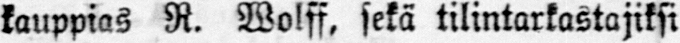kauppias R. Wolff, sekä tilintarkastajiksi
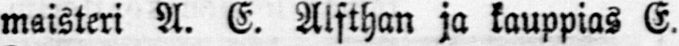maisteri A. E. Alfthan ja kauppias E.
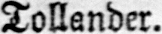Tollender.
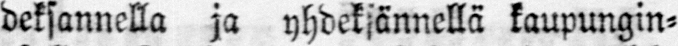deksannella ja yhdeksännellä kaupungin-
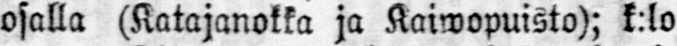osalla (Katajanokka ja Kaiwopuisto); k:lo
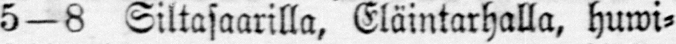5 — 8 Siltasaarilla, Eläintarhalla, huwi-
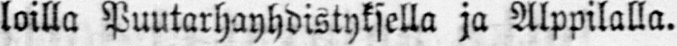loilla Puutarhayhdistyksella ja Alppilalla.
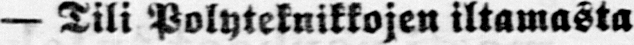— Tili Polyteknikkojen iltamasta
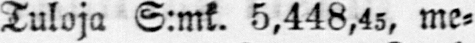18 11/2: Tuloja S:mk. 5,448,45, me-
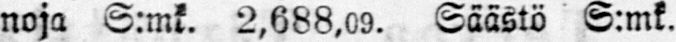noja S:mk. 2,688,09. Säästö S:mk.
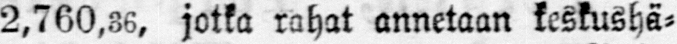2,760,36, jotka rahat annetaan keskushä-
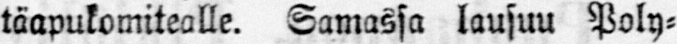täapukomitealle. Samassa lausuu Poly-
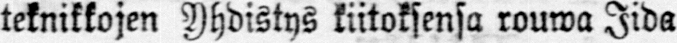teknikkojen Yhdistus kiitoksensa rouwa Iida
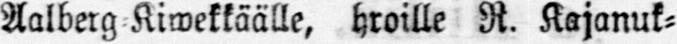Aalberg Kiwekkäälle, hroille R. Kajanuk-
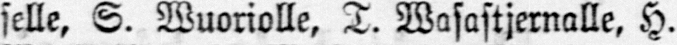selle, S. Wuoriolle, T. Wasastjernalle, H.
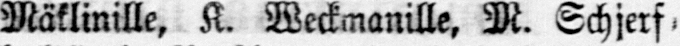Mäklinille. K. Weckmanille, M. Schjerf-
